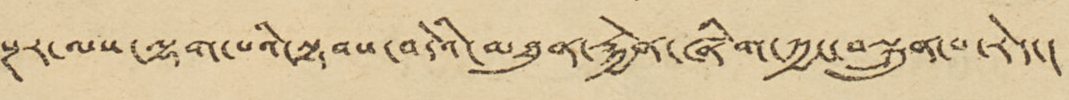སྔར་ལས་ལྷག་པའི་སྟབས་བདེའི་མཐུན་རྐྱེན་ཞིག་ཀྱང་བསྐྲུན་པ་རེད་།
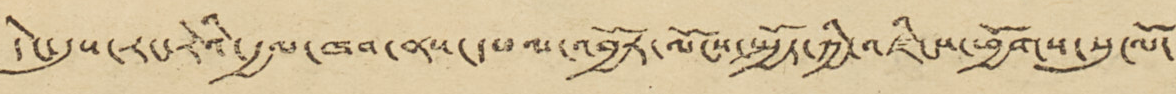དེང་དུས་རང་རེའི་རྒྱལ་ཁབ་ནས་དཔལ་འབྱོར་ལོངས་སྤྱོད་ཀྱི་འཛིངས་ཕྱོགས་སུ་ལོ་
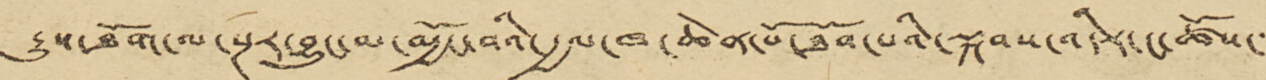རྒྱུས་ཐོག་ལ་སྔར་བྱུང་མ་མྱོང་བའི་རྒྱལ་ཁ་ཆེན་པོ་ཐོབ་པའི་སྐབས་འདིར་ང་ཚོས་་
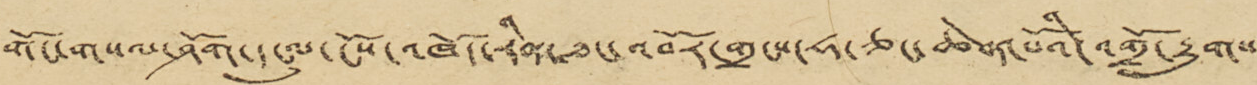གོང་གསལ་ཤོག་དངུལ་ངོས་འཁོད་རིན་ཐང་འབོར་གྲངས་ཧ་ཅང་ཆེན་པོའི་འགྲོ་རྒྱུགས་
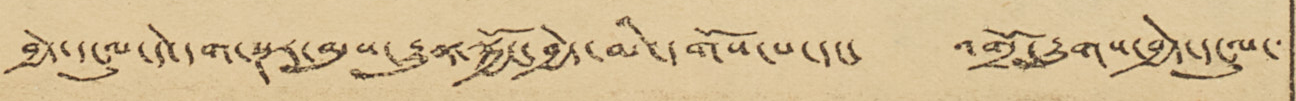བྱེད་དངུལ་དེ་དག་སྔར་མུས་རྒྱུན་སྐྱོང་བྱེད་མི་དགོས་པ་དང་ འགྲོ་རྒྱུགས་བྱེད་དངུལ་
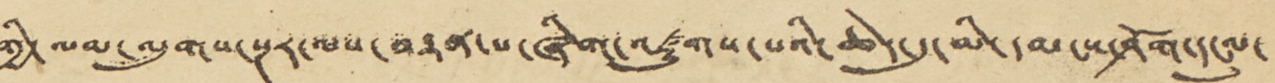གྱི་ལམ་ལུགས་སྔར་ལས་བརྟན་པ་ཞིག་འཛུགས་པའི་ཆེད་དུ་མི་དམངས་ཤོག་དངུལ་
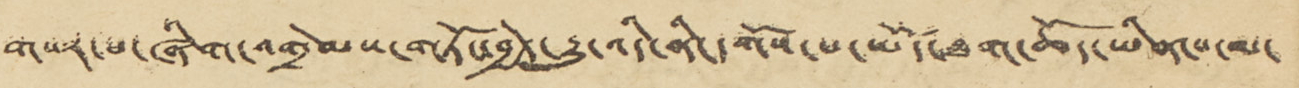གསར་པ་ཞིག་འགྲེམས་གཏོང་བྱེད་རྒྱུ་འདི་ནི་དགོས་པ་ཡོད་ཐག་ཆོད་ཡིན་པ་མ་
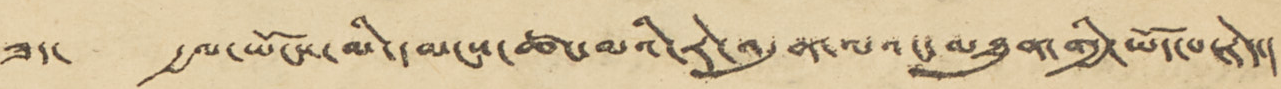ཟད་ རྒྱལ་ཡོངས་མི་དམངས་ཚང་མའི་རེ་འདུན་ལའང་མཐུན་གྱི་ཡོད་པ་རེད་།
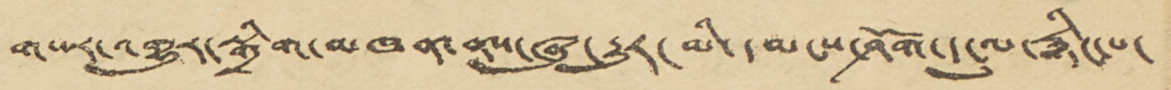གསར་འགྱུར་སྒྲིག་མཁན་ནས་རྒྱུར་མི་དམངས་ཤོག་དངུལ་རྙིང་པ་
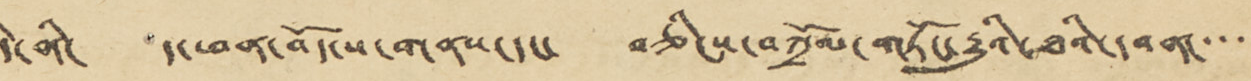དེ་ནི་ ད་ཕན་བོད་ས་གནས་དང་ བཅིངས་བཀྲོལ་གཏོང་རྒྱུའི་ཐའི་དབན་་་་་
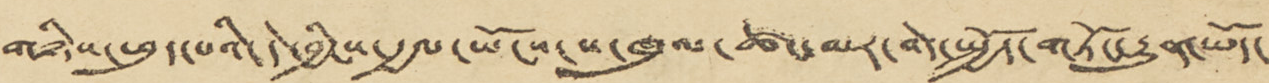གཉིས་ཕུད་པའི་དེ་བྱིངས་རྒྱལ་ཡོངས་ས་ཁུལ་ཚང་མར་བེད་སྤྱོད་གཏོང་རྒྱུན་ཡོད་
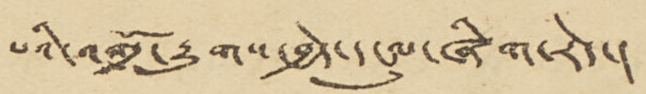པའི་འགྲོ་རྒྱུགས་བྱེད་དངུལ་ཞིག་རེད་།
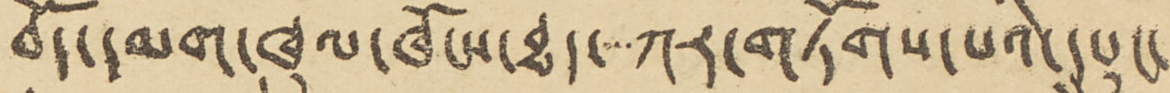བོད་དམག་ཁུལ་ཁོངས་ཐད་་་་ཀར་གཏོགས་པའི་དཔུང་
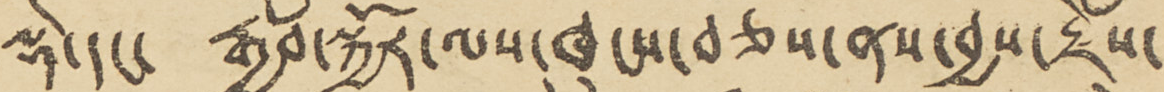ལྡེ་དང་ རྒྱབ་སྐྱོར་ལསཁུངས་བཅས་ནས་བྱས་རྗེས་
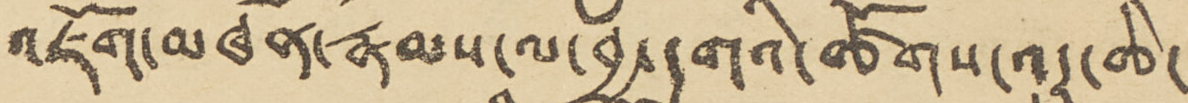འཇོག་མཁན་རྣམས་ལ་བྱ་དགའི་ཚོགས་འདུ་ཆེ་
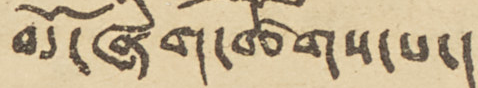མོ་ཞིག་ཚོགས་པ་།
